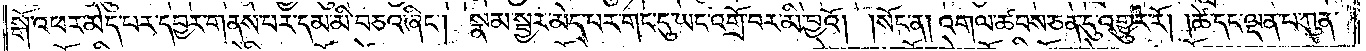སྒོ་འཕར་མེད་པར་དབྱར་གནས་པར་དམ་མི་བཅའ་ཞིང༌། སྣམ་སྦྱར་མེད་པར་གང་དུ་ཡང་འགྲོ་བར་མི་བྱའོ། །སོང་ན། འགལ་ཚབས་ཅན་དུ་འགྱུར་རོ། །ཚེ་དང་ལྡན་པ་ཀུན་
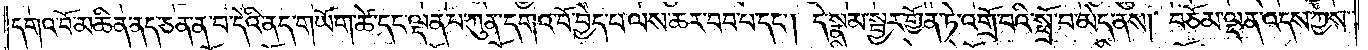དགའ་བོ་མཆིན་ནད་ཅན་ན་བ་དེའི་ནད་གཡོག་ཚེ་དང་ལྡན་པ་ཀུན་དགའ་བོ་བྱེད་པ་ལས་ཆར་བབ་པ་དང༌། དེ་སྣམ་སྦྱར་གྱོན་ཏེ་འགྲོ་བའི་སྤྲོ་བ་མེད་ནས། བཅོམ་ལྡན་འདས་ཀྱིས་
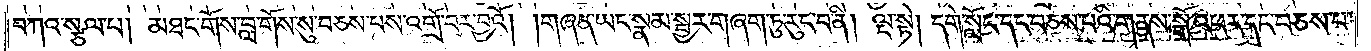བཀའ་སྩལ་པ། མཐང་གོས་བླ་གོས་སུ་བཅས་པས་འགྲོ་བར་བྱའོ། །གཞན་ཡང་སྣམ་སྦྱར་གཞག་ཏུ་རུང་བ་ནི། ལྔ་སྟེ། དགེ་སློང་དང་བཅས་པའི་གནས་སྒོ་འཕར་དང་བཅས་པ་
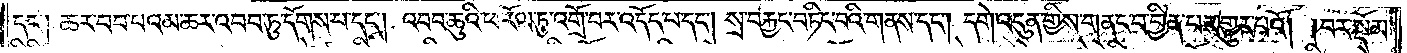དང༌། ཆར་བབ་པའམ་ཆར་འབབ་ཏུ་དོགས་པ་དང༌། འབབ་ཆུའི་ཕ་རོལ་ཏུ་འགྲོ་བར་འདོད་པ་དང༌། སྲ་བརྐྱང་བཏིང་བའི་གནས་དང༌། དགེ་འདུན་གྱིས་གནང་བ་བྱིན་པར་གྱུར་པའོ། །བར་སྡོམ་
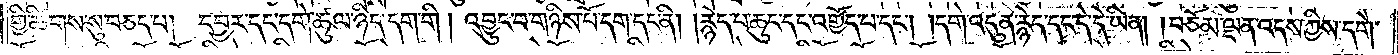གྱི་ཚིགས་སུ་བཅད་པ། དབྱར་དང་དགེ་ཚུལ་ཉིད་དག་གི །འབྱུང་བ་གཉིས་པོ་དག་དང་ནི། །རྙེད་པ་ཆུང་དང་འགྱོད་པ་དང༌། །དགེ་འདུན་རྙེད་དང་དེ་དེ་ཡིན། །བཅོམ་ལྡན་འདས་ཀྱིས་དགེ་
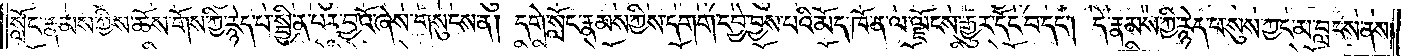སློང་རྣམས་ཀྱིས་ཆོས་གོས་ཀྱི་རྙེད་པ་སྦྱིན་པར་བྱའོ་ཞེས་གསུངས་ན། དགེ་སློང་རྣམས་ཀྱིས་དགག་དབྱེ་བྱས་པའི་མོད་ཁོ་ན་ལ་ལྗོངས་རྒྱུར་དོང་བ་དང༌། དེ་རྣམས་ཀྱི་རྙེད་པ་སུས་ཀྱང་མ་བླངས་ནས།
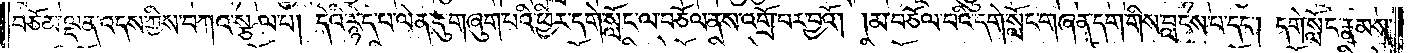བཅོམ་ལྡན་འདས་ཀྱིས་བཀའ་སྩལ་པ། དེའི་རྙེད་པ་ལེན་དུ་གཞུག་པའི་ཕྱིར་དགེ་སློང་ལ་བཅོལ་ནས་འགྲོ་བར་བྱའོ། །མ་བཅོལ་བའི་དགེ་སློང་གཞན་དག་གིས་བླངས་པ་དང༌། དགེ་སློང་རྣམས་
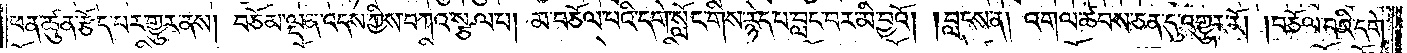ཕན་ཚུན་རྩོད་པར་གྱུར་ནས། བཅོམ་ལྡན་འདས་ཀྱིས་བཀའ་སྩལ་པ། མ་བཅོལ་བའི་དགེ་སློང་གིས་རྙེད་པ་བླང་བར་མི་བྱའོ། །བླངས་ན། འགལ་ཚབས་ཅན་དུ་འགྱུར་རོ། །བཅོལ་བའི་དགེ་
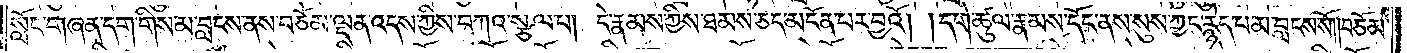སློང་གཞན་དག་གིས་མ་བླངས་ནས་བཅོམ་ལྡན་འདས་ཀྱིས་བཀའ་སྩལ་པ། དེ་རྣམས་ཀྱིས་ཐམས་ཅད་མངོན་པར་བྱའོ། །དགེ་ཚུལ་རྣམས་དོང་ནས་སུས་ཀྱང་རྙེད་པ་མ་བླངས་སོ། །བཅོམ་
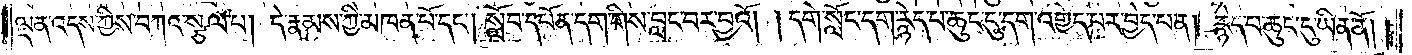ལྡན་འདས་ཀྱིས་བཀའ་སྩལ་པ། དེ་རྣམས་ཀྱི་མཁན་པོ་དང༌། སློབ་དཔོན་དག་གིས་བླང་བར་བྱའོ། །དགེ་སློང་དག་རྙེད་པ་ཆུང་དུ་དག་འགྱེད་པར་བྱེད་པ་ན། རྙེད་པ་ཆུང་དུ་ཡིན་ནོ། །
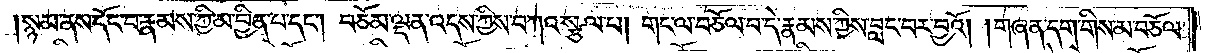།སྙམ་ནས་དོང་བ་རྣམས་ཀྱི་མ་བྱིན་པ་དང༌། བཅོམ་ལྡན་འདས་ཀྱིས་བཀའ་སྩལ་པ། གང་ལ་བཅོལ་བ་དེ་རྣམས་ཀྱིས་བླང་བར་བྱའོ། །གཞན་དག་གིས་མ་བཅོལ་
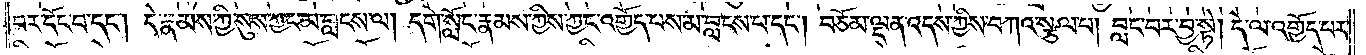བར་དོང་བ་དང༌། དེ་རྣམས་ཀྱི་སུས་ཀྱང་མ་བླངས་ལ། དགེ་སློང་རྣམས་ཀྱིས་ཀྱང་འགྱོད་པས་མ་བླངས་པ་དང༌། བཅོམ་ལྡན་འདས་ཀྱིས་བཀའ་སྩལ་པ། བླང་བར་བྱ་སྟེ། དེ་ལ་འགྱོད་པར་
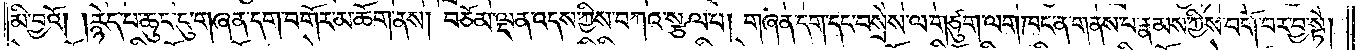མི་བྱའོ། །རྙེད་པ་ཆུང་དུ་གཞན་དག་བགོར་མཆོག་ནས། བཅོམ་ལྡན་འདས་ཀྱིས་བཀའ་སྩལ་པ། གཞན་དག་དང་བསྲེས་ལ་གཙུག་ལག་ཁང་ན་གནས་པ་རྣམས་ཀྱིས་བགོ་བར་བྱ་སྟེ།
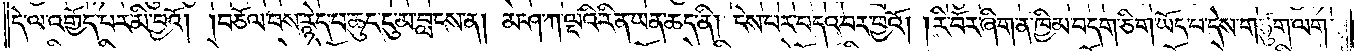དེ་ལ་འགྱོད་པར་མི་བྱའོ། །བཅོལ་བས་རྙེད་པ་ཆུང་དུ་མ་བླངས་ན། མ་ཤ་ཀ་ལྔའི་རིན་ཡན་ཆད་ནི། ངེས་པར་བདའ་བར་བྱའོ། །རི་བོར་ཞིག་ན་ཁྱིམ་བདག་ཅིག་ཡོད་པ་དེས་གཙུག་ལག་
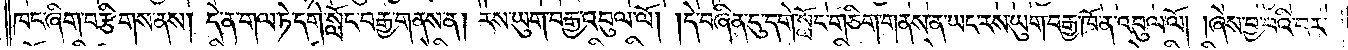ཁང་ཞིག་བརྩིགས་ནས། དེ་ན་གལ་ཏེ་དགེ་སློང་བརྒྱ་གནས་ན། རས་ཡུག་བརྒྱ་འབུལ་ལོ། །དེ་བཞིན་དུ་དགེ་སློང་གཅིག་གནས་ན་ཡང་རས་ཡུག་བརྒྱ་ཁོ་ན་འབུལ་ལོ། །ཞེས་བྱ་བའི་བར་
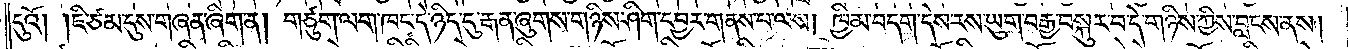དུའོ། །ཇི་ཙམ་དུས་གཞན་ཞིག་ན། གཙུག་ལག་ཁང་དེ་ཉིད་དུ་རྒན་ཞུགས་གཉིས་ཤིག་དབྱར་གནས་པ་ལས། ཁྱིམ་བདག་དེས་རས་ཡུག་བརྒྱ་བསྐུར་བ་དེ་གཉིས་ཀྱིས་བླངས་ནས།
